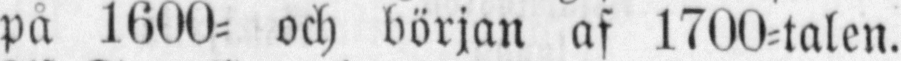på 1600- och början af 1700-talen.
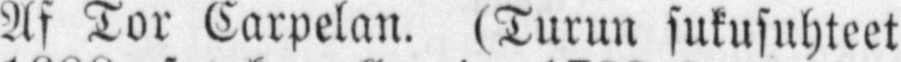Af Tor Carpelan. (Turun sukusuhteet
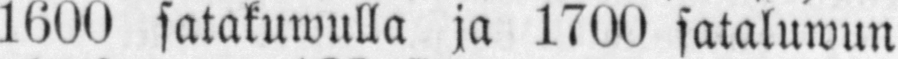1600 satakuwulla ja 1700 sataluwun
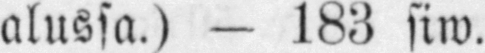alussa.) — 183 siw.
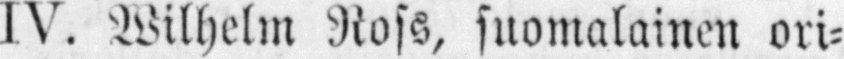IV. Wilhelm suomalainen ori-
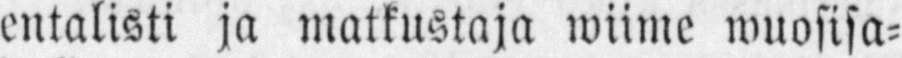entalisti ja matkustaja wiime wuosisa-
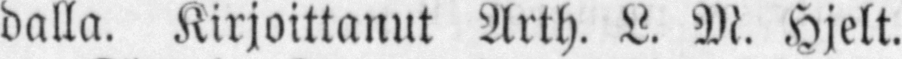dalla. Kirjoittanut Arth. L. M. Hjelt.
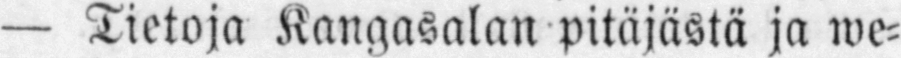— Tietoja Kangasalan pitäjästä ja we-
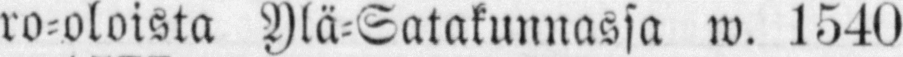ro-oloista Ylä-Satakunnassa w. 1540
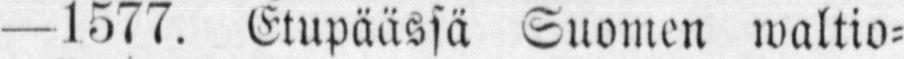—1577. Etupäässä Suomen waltio-
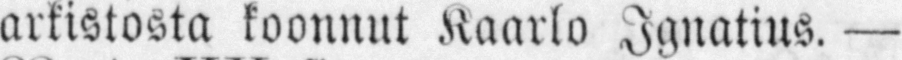arkistosta koonnut Kaarlo Ignatius. —
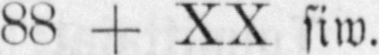88 + XX siw.
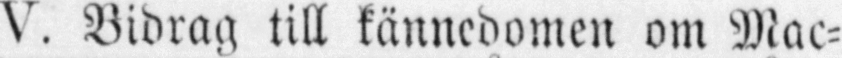V. Bidrag till kännedomen om Mac-
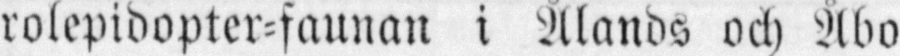rolepidopter-faunan i Ålands och Åbo
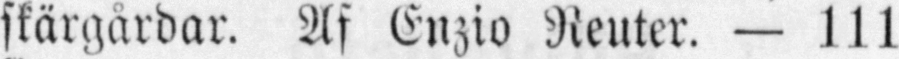skärgårdar. Af Enzio Reuter. — 111
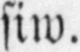siw.
